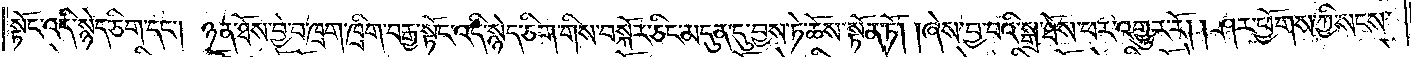སྟོང་འདི་སྙེད་ཅིག་དང༌། ཉན་ཐོས་བྱེ་བ་ཁྲག་ཁྲིག་བརྒྱ་སྟོང་འདི་སྙེད་ཅིག་གིས་བསྐོར་ཅིང་མདུན་དུ་བྱས་ཏེ་ཆོས་སྟོན་ཏོ། །ཞེས་བྱ་བའི་སྒྲ་ཐོས་པར་འགྱུར་རོ། །ཤར་ཕྱོགས་ཀྱི་སངས་
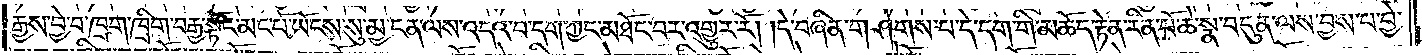རྒྱས་བྱེ་བ་ཁྲག་ཁྲིག་བརྒྱ་སྟོང་མང་པོ་ཡོངས་སུ་མྱ་ངན་ལས་འདའ་བ་དག་ཀྱང་མཐོང་བར་འགྱུར་རོ། །དེ་བཞིན་གཤེགས་པ་དེ་དག་གི་མཆོད་རྟེན་རིན་པོ་ཆེ་སྣ་བདུན་ལས་བྱས་པ་བྱེ་
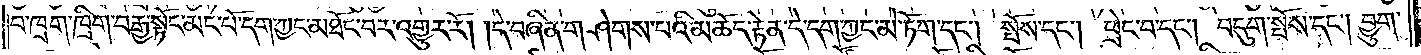བ་ཁྲག་ཁྲིག་བརྒྱ་སྟོང་མང་པོ་དག་ཀྱང་མཐོང་བར་འགྱུར་རོ། །དེ་བཞིན་གཤེགས་པའི་མཆོད་རྟེན་དེ་དག་ཀྱང་མེ་ཏོག་དང༌། སྤོས་དང༌། ཕྲེང་བ་དང༌། བདུག་སྤོས་དང༌། བྱུག་
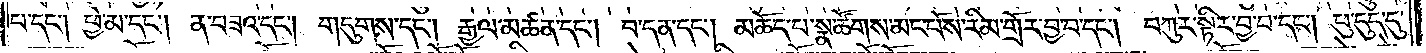པ་དང༌། ཕྱེ་མ་དང༌། ན་བཟའ་དང༌། གདུགས་དང༌། རྒྱལ་མཚན་དང༌། བ་དན་དང༌། མཆོད་པ་སྣ་ཚོགས་མང་པོས་རིམ་གྲོར་བྱ་བ་དང༌། བཀུར་སྟིར་བྱ་བ་དང༌། ཕུ་དུད་དུ་
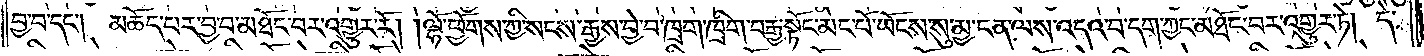བྱ་བ་དང༌། མཆོད་པར་བྱ་བ་མཐོང་བར་འགྱུར་རོ། །ལྷོ་ཕྱོགས་ཀྱི་སངས་རྒྱས་བྱེ་བ་ཁྲག་ཁྲིག་བརྒྱ་སྟོང་མང་པོ་ཡོངས་སུ་མྱ་ངན་ལས་འདའ་བ་དག་ཀྱང་མཐོང་བར་འགྱུར་ཏེ། དེ་
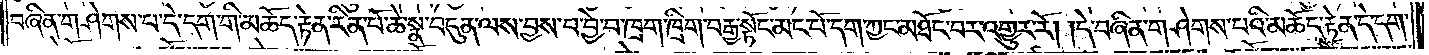བཞིན་གཤེགས་པ་དེ་དག་གི་མཆོད་རྟེན་རིན་པོ་ཆེ་སྣ་བདུན་ལས་བྱས་པ་བྱེ་བ་ཁྲག་ཁྲིག་བརྒྱ་སྟོང་མང་པོ་དག་ཀྱང་མཐོང་བར་འགྱུར་རོ། །དེ་བཞིན་གཤེགས་པའི་མཆོད་རྟེན་དེ་དག་
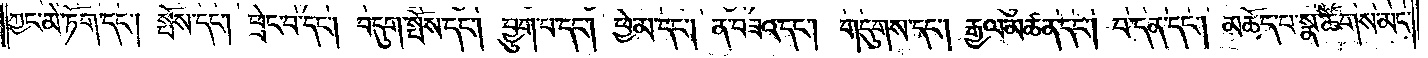ཀྱང་མེ་ཏོག་དང༌། སྤོས་དང༌། ཕྲེང་བ་དང༌། བདུག་སྤོས་དང༌། བྱུག་པ་དང༌། ཕྱེ་མ་དང༌། ན་བཟའ་དང༌། གདུགས་དང༌། རྒྱལ་མཚན་དང༌། བ་དན་དང༌། མཆོད་པ་སྣ་ཚོགས་མང་
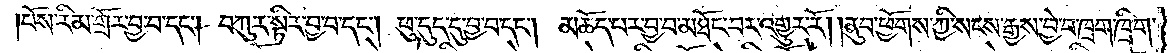པོས་རིམ་གྲོར་བྱ་བ་དང༌། བཀུར་སྟིར་བྱ་བ་དང༌། ཕུ་དུད་དུ་བྱ་བ་དང༌། མཆོད་པར་བྱ་བ་མཐོང་བར་འགྱུར་རོ། །ནུབ་ཕྱོགས་ཀྱི་སངས་རྒྱས་བྱེ་བ་ཁྲག་ཁྲིག་
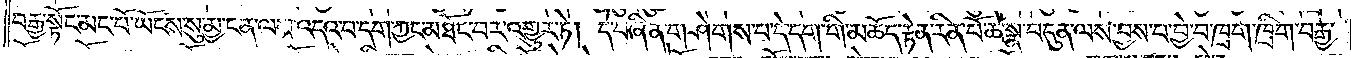བརྒྱ་སྟོང་མང་པོ་ཡོངས་སུ་མྱ་ངན་ལས་འདའ་བ་དག་ཀྱང་མཐོང་བར་འགྱུར་ཏེ། དེ་བཞིན་གཤེགས་པ་དེ་དག་གི་མཆོད་རྟེན་རིན་པོ་ཆེ་སྣ་བདུན་ལས་བྱས་པ་བྱེ་བ་ཁྲག་ཁྲིག་བརྒྱ་
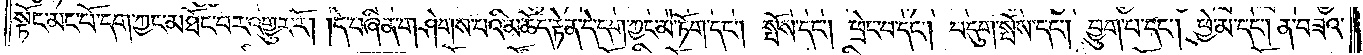སྟོང་མང་པོ་དག་ཀྱང་མཐོང་བར་འགྱུར་རོ། །དེ་བཞིན་གཤེགས་པའི་མཆོད་རྟེན་དེ་དག་ཀྱང་མེ་ཏོག་དང༌། སྤོས་དང༌། ཕྲེང་བ་དང༌། བདུག་སྤོས་དང༌། བྱུག་པ་དང༌། ཕྱེ་མ་དང༌། ན་བཟའ་
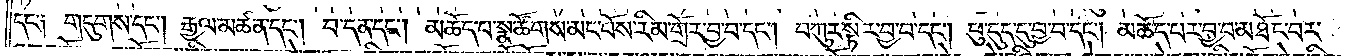དང༌། གདུགས་དང༌། རྒྱལ་མཚན་དང༌། བ་དན་དང༌། མཆོད་པ་སྣ་ཚོགས་མང་པོས་རིམ་གྲོར་བྱ་བ་དང༌། བཀུར་སྟིར་བྱ་བ་དང༌། ཕུ་དུད་དུ་བྱ་བ་དང༌། མཆོད་པར་བྱ་བ་མཐོང་བར་
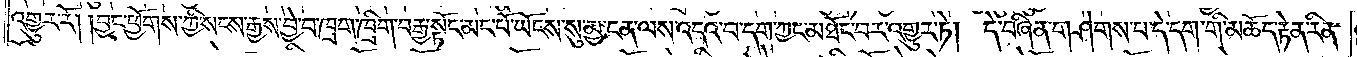འགྱུར་རོ། །བྱང་ཕྱོགས་ཀྱི་སངས་རྒྱས་བྱེ་བ་ཁྲག་ཁྲིག་བརྒྱ་སྟོང་མང་པོ་ཡོངས་སུ་མྱ་ངན་ལས་འདའ་བ་དག་ཀྱང་མཐོང་བར་འགྱུར་ཏེ། དེ་བཞིན་གཤེགས་པ་དེ་དག་གི་མཆོད་རྟེན་རིན་
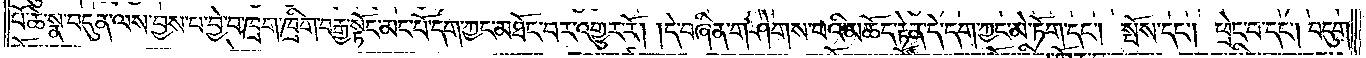པོ་ཆེ་སྣ་བདུན་ལས་བྱས་པ་བྱེ་བ་ཁྲག་ཁྲིག་བརྒྱ་སྟོང་མང་པོ་དག་ཀྱང་མཐོང་བར་འགྱུར་རོ། །དེ་བཞིན་གཤེགས་པའི་མཆོད་རྟེན་དེ་དག་ཀྱང་མེ་ཏོག་དང༌། སྤོས་དང༌། ཕྲེང་བ་དང༌། བདུག་
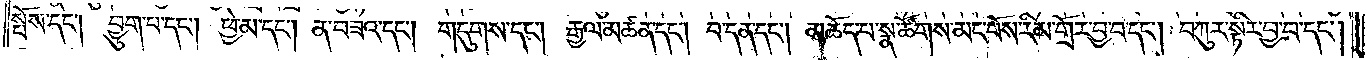སྤོས་དང༌། བྱུག་པ་དང༌། ཕྱེ་མ་དང༌། ན་བཟའ་དང༌། གདུགས་དང༌། རྒྱལ་མཚན་དང༌། བ་དན་དང༌། མཆོད་པ་སྣ་ཚོགས་མང་པོས་རིམ་གྲོར་བྱ་བ་དང༌། བཀུར་སྟིར་བྱ་བ་དང༌།
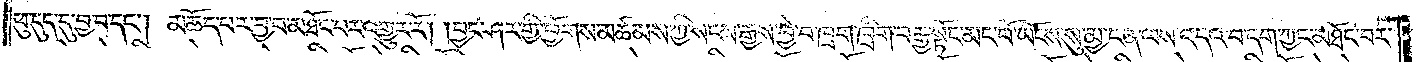ཕུ་དུད་དུ་བྱ་བ་དང༌། མཆོད་པར་བྱ་བ་མཐོང་བར་འགྱུར་རོ། །བྱང་ཤར་གྱི་ཕྱོགས་མཚམས་ཀྱི་སངས་རྒྱས་བྱེ་བ་ཁྲག་ཁྲིག་བརྒྱ་སྟོང་མང་པོ་ཡོངས་སུ་མྱ་ངན་ལས་འདའ་བ་དག་ཀྱང་མཐོང་བར་
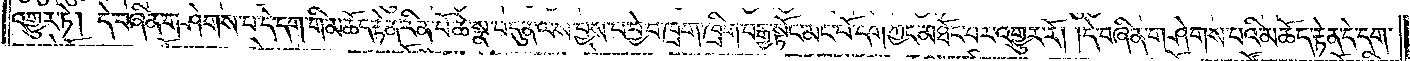འགྱུར་ཏེ། དེ་བཞིན་གཤེགས་པ་དེ་དག་གི་མཆོད་རྟེན་རིན་པོ་ཆེ་སྣ་བདུན་ལས་བྱས་པ་བྱེ་བ་ཁྲག་ཁྲིག་བརྒྱ་སྟོང་མང་པོ་དག་ཀྱང་མཐོང་བར་འགྱུར་རོ། །དེ་བཞིན་གཤེགས་པའི་མཆོད་རྟེན་དེ་དག་
